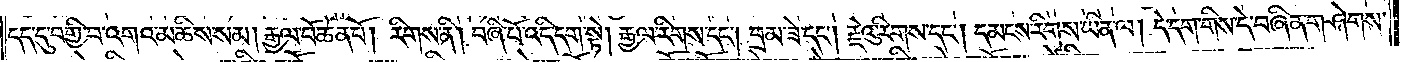དད་དུ་བགྱི་བ་འགའ་མཆིས་སམ། རྒྱལ་པོ་ཆེན་པོ། རིགས་ནི། བཞི་པོ་འདི་དག་སྟེ། རྒྱལ་རིགས་དང༌། བྲམ་ཟེ་དང༌། རྗེའུ་རིགས་དང༌། དམངས་རིགས་ཡིན་ལ། དེ་དག་གིས་དེ་བཞིན་གཤེགས་
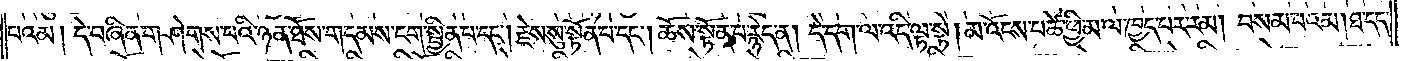པའམ། དེ་བཞིན་གཤེགས་པའི་ཉན་ཐོས་གདམས་ངག་སྦྱིན་པ་དང༌། རྗེས་སུ་སྟོན་པ་དང༌། ཆོས་སྟོན་པ་རྙེད་ན། དེ་དག་ལ་འདི་ལྟ་སྟེ། མ་འོངས་པ་ཚེ་ཕྱི་མ་ལ་ཁྱད་པར་རམ། བསམ་པའམ། ཐ་དད་
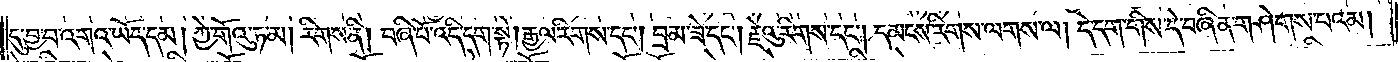དུ་བྱ་བ་འགའ་ཡོད་དམ། ཀྱེ་གོའུ་ཏ་མ། རིགས་ནི། བཞི་པོ་འདི་དག་སྟེ། རྒྱལ་རིགས་དང༌། བྲམ་ཟེ་དང༌། རྗེའུ་རིགས་དང༌། དམངས་རིགས་ལགས་ལ། དེ་དག་གིས་དེ་བཞིན་གཤེགས་པའམ།
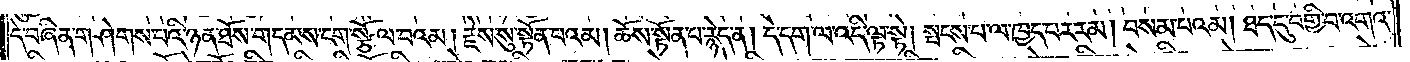དེ་བཞིན་གཤེགས་པའི་ཉན་ཐོས་གདམས་ངག་སྩོལ་བའམ། རྗེས་སུ་སྟོན་པའམ། ཆོས་སྟོན་པ་རྙེད་ན། དེ་དག་ལ་འདི་ལྟ་སྟེ། སྤངས་པ་ལ་ཁྱད་པར་རམ། བསམ་པའམ། ཐད་དུ་བགྱི་བ་འགའ་
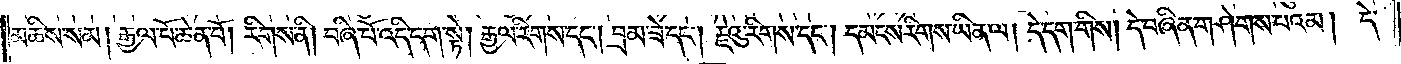མཆིས་སམ། རྒྱལ་པོ་ཆེན་པོ། རིགས་ནི། བཞི་པོ་འདི་དག་སྟེ། རྒྱལ་རིགས་དང༌། བྲམ་ཟེ་དང༌། རྗེའུ་རིགས་དང༌། དམངས་རིགས་ཡིན་ལ། དེ་དག་གིས། དེ་བཞིན་གཤེགས་པའམ། དེ་
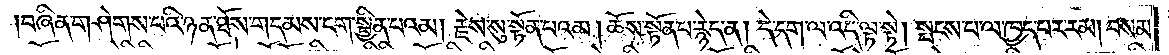།བཞིན་གཤེགས་པའི་ཉན་ཐོས་གདམས་ངག་སྦྱིན་པའམ། རྗེས་སུ་སྟོན་པའམ། ཆོས་སྟོན་པ་རྙེད་ན། དེ་དག་ལ་འདི་ལྟ་སྟེ། སྤངས་པ་ལ་ཁྱད་པར་རམ། བསམ་
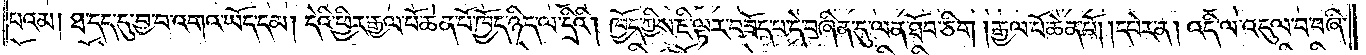པའམ། ཐ་དད་དུ་བྱ་བ་འགའ་ཡོད་དམ། དེའི་ཕྱིར་རྒྱལ་པོ་ཆེན་པོ་ཁྱོད་ཉིད་ལ་དྲིའི། ཁྱོད་ཀྱིས་ཇི་ལྟར་བཟོད་པ་དེ་བཞིན་དུ་ལན་ཐོབ་ཅིག །རྒྱལ་པོ་ཆེན་པོ། །དཔེར་ན། འདི་ལ་འདུལ་བ་བཞི་
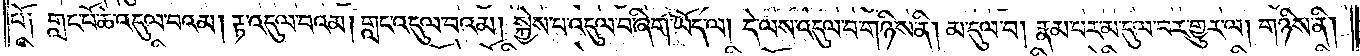པོ༑ གླང་པོ་ཆེ་འདུལ་བའམ། རྟ་འདུལ་བའམ། གླང་འདུལ་བའམ། སྐྱེས་པ་འདུལ་བ་ཞིག་ཡོད་ལ། དེ་ལས་འདུལ་བ་གཉིས་ནི། མ་དུལ་བ། རྣམ་པར་མ་དུལ་བར་གྱུར་ལ། གཉིས་ནི།
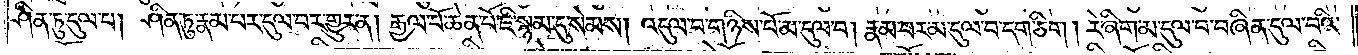ཤིན་ཏུ་དུལ་པ། ཤིན་ཏུ་རྣམ་པར་དུལ་བར་གྱུར་ན། རྒྱལ་པོ་ཆེན་པོ་ཇི་སྙམ་དུ་སེམས། འདུལ་བ་གཉིས་པོ་མ་དུལ་བ། རྣམ་པར་མ་དུལ་བ་དག་ཅིག །རེ་ཞིག་མ་དུལ་བ་བཞིན་དུལ་བའི་
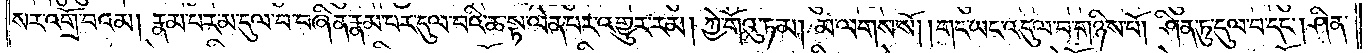སར་འགྲོ་བའམ། རྣམ་པར་མ་དུལ་བ་བཞིན་རྣམ་པར་དུལ་བའི་ཆ་སྟ་ལེན་པར་འགྱུར་རམ། ཀྱེ་གོའུ་ཏ་མ། མ་ལགས་སོ། །གང་ཡང་འདུལ་བ་གཉིས་པོ། ཤིན་ཏུ་དུལ་བ་དང༌། ཤིན་
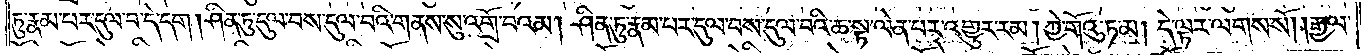ཏུ་རྣམ་པར་དུལ་བ་དེ་དག །ཤིན་ཏུ་དུལ་བས་དུལ་བའི་གནས་སུ་འགྲོ་བའམ། ཤིན་ཏུ་རྣམ་པར་དུལ་བས་དུལ་བའི་ཆ་སྟ་ལེན་པར་འགྱུར་རམ། ཀྱེ་གོའུ་ཏ་མ། དེ་ལྟར་ལགས་སོ། །རྒྱལ་
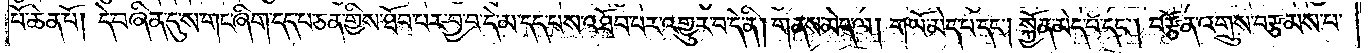པོ་ཆེན་པོ། དེ་བཞིན་དུ་ས་གང་ཞིག་དད་པ་ཅན་གྱིས་ཐོབ་པར་བྱ་བ་དེ་མ་དད་པས་འཐོབ་པར་འགྱུར་བ་དེ་ནི། གནས་མེད་ལ། གཡོ་མེད་པ་དང༌། སྐྱོན་མེད་པ་དང༌། བརྩོན་འགྲུས་བརྩམས་པ་
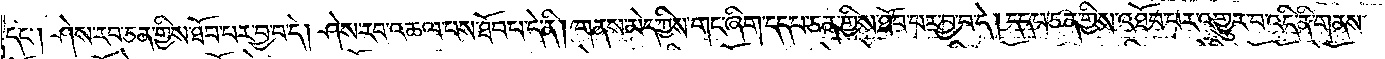དང༌། ཤེས་རབ་ཅན་གྱིས་ཐོབ་པར་བྱ་བ་དེ། ཤེས་རབ་འཆལ་པས་ཐོབ་པ་དེ་ནི། གནས་མེད་ཀྱིས་གང་ཞིག་དད་པ་ཅན་གྱིས་ཐོབ་པར་བྱ་བ་དེ། དད་པ་ཅན་གྱིས་འཐོབ་པར་འགྱུར་བ་འདི་ནི་གནས་
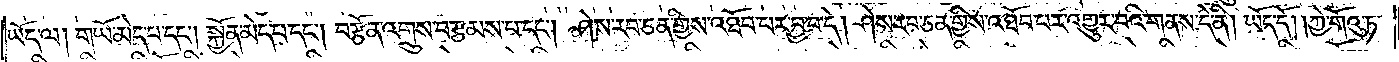ཡོད་ལ། གཡོ་མེད་པ་དང༌། སྐྱོན་མེད་པ་དང༌། བརྩོན་འགྲུས་བརྩམས་པ་དང༌། ཤེས་རབ་ཅན་གྱིས་འཐོབ་པར་བྱ་བ་དེ། ཤེས་རབ་ཅན་གྱི་འཐོབ་པར་འགྱུར་བའི་གནས་དེ་ནི། ཡོད་དོ། །ཀྱེ་གོའུ་ཏ་
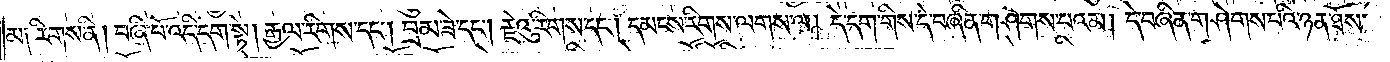མ། རིགས་ནི། བཞི་པོ་འདི་དག་སྟེ། རྒྱལ་རིགས་དང༌། བྲམ་ཟེ་དང༌། རྗེའུ་རིགས་དང༌། དམངས་རིགས་ལགས་ལ། དེ་དག་གིས་དེ་བཞིན་གཤེགས་པའམ། དེ་བཞིན་གཤེགས་པའི་ཉན་ཐོས་
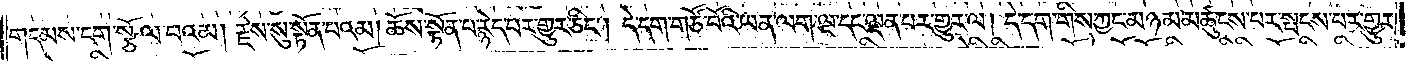གདམས་ངག་སྩོལ་བའམ། རྗེས་སུ་སྟོན་པའམ། ཆོས་སྟོན་པ་རྙེད་པར་གྱུར་ཅིང༌། དེ་དག་གཙོ་བོའི་ཡན་ལག་ལྔ་དང་ལྡན་པར་གྱུར་ལ། དེ་དག་གིས་ཀྱང་མཉམ་མཚུངས་པར་སྤངས་པར་གྱུར་
